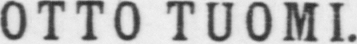OTTO TUOMI.
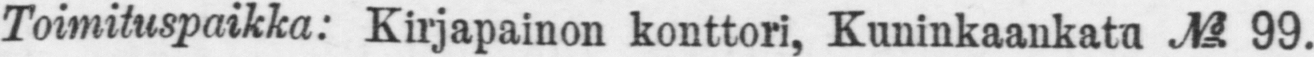Toimituspaikka:- Kirjapainon konttori, Kuninkaankata No.99.
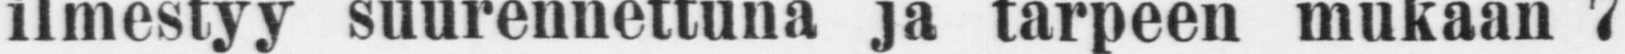ilmestyy suurennettuna ja tarpeen mukaan 7
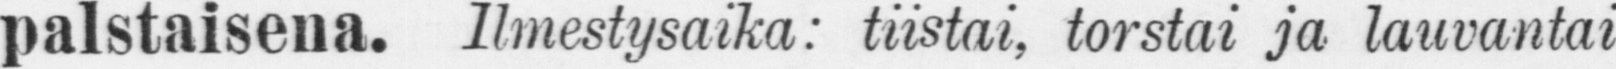palstaisena. Ilmestysaika: tiistai, Torstai ja lauvantai
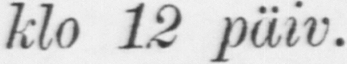klo 12 päiv.
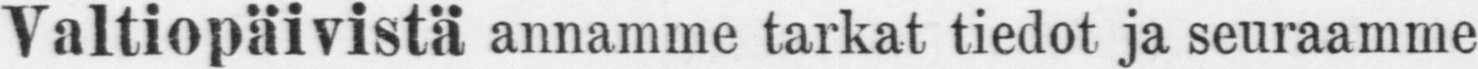Valtiopäivistä annamme tarkat tiedot ja seuraamme
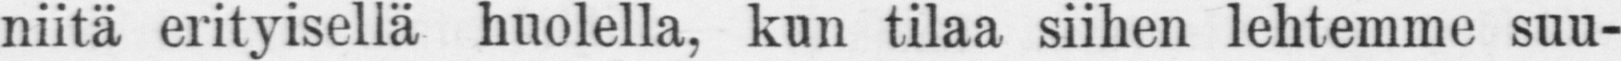niitä erityisellä huolella, kun tilaa siihen lehtemme suu-
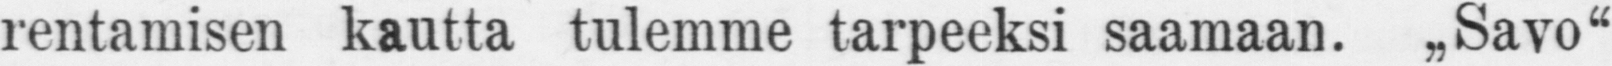rentamisen kautta tulemme tarpeeksi saamaan. „Savo"
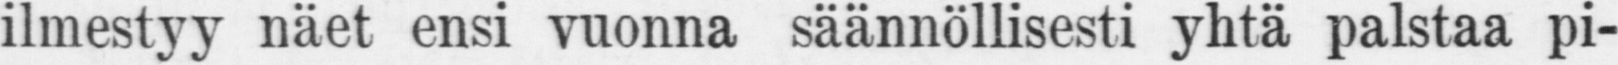ilmestyy näet ensi vuonna säännöllisesti palstaa pi-
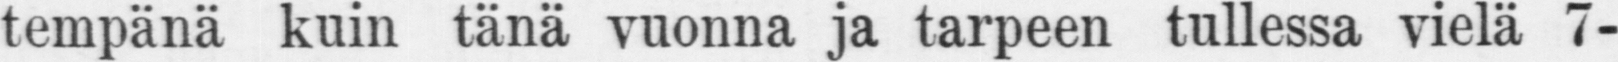tempänä kuin tänä vuonna ja tarpeen tullessa vielä 7-
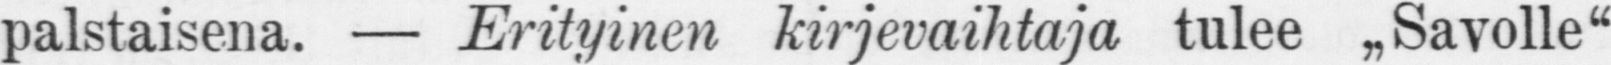palstaisena. — Erityinen Kirjevaihtaja tulee „ Savolle"
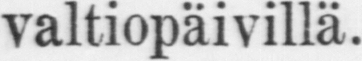valtiopäivillä.
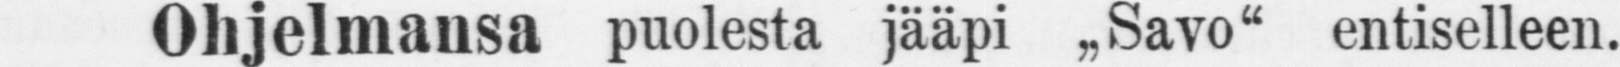Ohjelmansa puolesta jääpi „Savo" entiselleen.
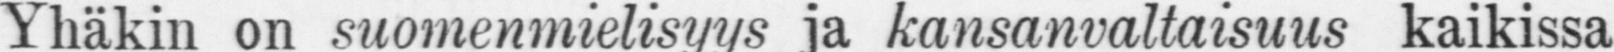Yhäkin on suomenmielisyys ja kansanvaltaisuus kaikissa
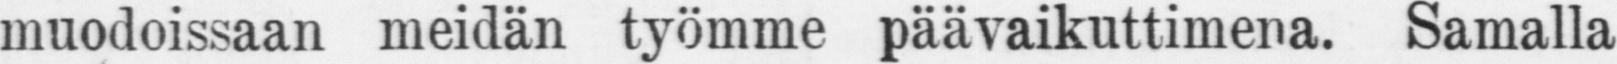muodoissaan meidän työmme päävaikuttimena. Samalla
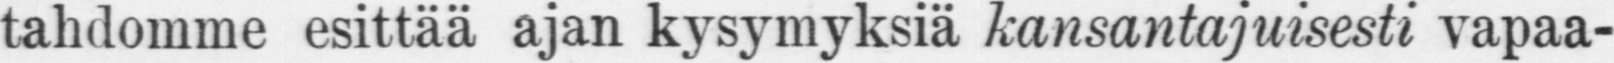tahdomme esittää ajan kansantajuisesti vapaa-
